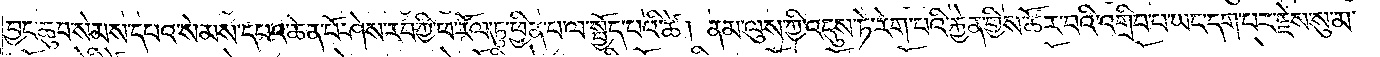བྱང་ཆུབ་སེམས་དཔའ་སེམས་དཔའ་ཆེན་པོ་ཤེས་རབ་ཀྱི་ཕ་རོལ་ཏུ་ཕྱིན་པ་ལ་སྤྱོད་པའི་ཚེ། ནམ་ལུས་ཀྱི་འདུས་ཏེ་རེག་པའི་རྐྱེན་གྱིས་ཚོར་བའི་འགྲིབ་པ་ཡང་དག་པར་རྗེས་སུ་མ་
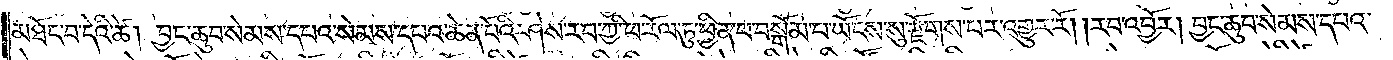མཐོང་བ་དེའི་ཚེ། བྱང་ཆུབ་སེམས་དཔའ་སེམས་དཔའ་ཆེན་པོའི་ཤེས་རབ་ཀྱི་ཕ་རོལ་ཏུ་ཕྱིན་པ་བསྒོམ་པ་ཡོངས་སུ་རྫོགས་པར་འགྱུར་རོ། །རབ་འབྱོར། བྱང་ཆུབ་སེམས་དཔའ་
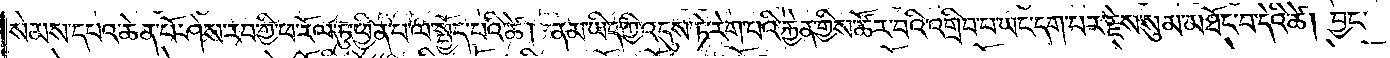སེམས་དཔའ་ཆེན་པོ་ཤེས་རབ་ཀྱི་ཕ་རོལ་ཏུ་ཕྱིན་པ་ལ་སྤྱོད་པའི་ཚེ། ནམ་ཡིད་ཀྱི་འདུས་ཏེ་རེག་པའི་རྐྱེན་གྱིས་ཚོར་བའི་འགྲིབ་པ་ཡང་དག་པར་རྗེས་སུ་མ་མཐོང་བ་དེའི་ཚེ། བྱང་
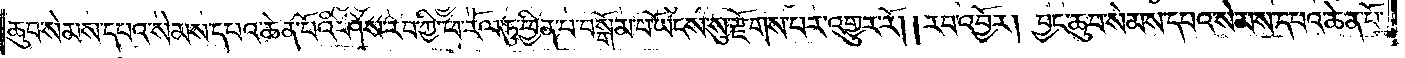ཆུབ་སེམས་དཔའ་སེམས་དཔའ་ཆེན་པོའི་ཤེས་རབ་ཀྱི་ཕ་རོལ་ཏུ་ཕྱིན་པ་བསྒོམ་པ་ཡོངས་སུ་རྫོགས་པ་འགྱུར་རོ། །རབ་འབྱོར། བྱང་ཆུབ་སེམས་དཔའ་སེམས་དཔའ་ཆེན་པོ་
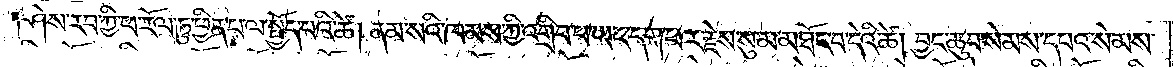ཤེས་རབ་ཀྱི་ཕ་རོལ་ཏུ་ཕྱིན་པ་ལ་སྤྱོད་པའི་ཚེ། ནམ་སའི་ཁམས་ཀྱི་འགྲིབ་པ་ཡང་དག་པར་རྗེས་སུ་མ་མཐོང་བ་དེའི་ཚེ། བྱང་ཆུབ་སེམས་དཔའ་སེམས་
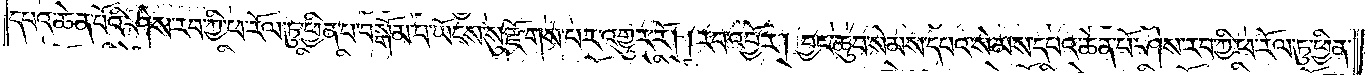དཔའ་ཆེན་པོའི་ཤེས་རབ་ཀྱི་ཕ་རོལ་ཏུ་ཕྱིན་པ་བསྒོམ་པ་ཡོངས་སུ་རྫོགས་པར་འགྱུར་རོ། །རབ་འབྱོར། བྱང་ཆུབ་སེམས་དཔའ་སེམས་དཔའ་ཆེན་པོ་ཤེས་རབ་ཀྱི་ཕ་རོལ་ཏུ་ཕྱིན་
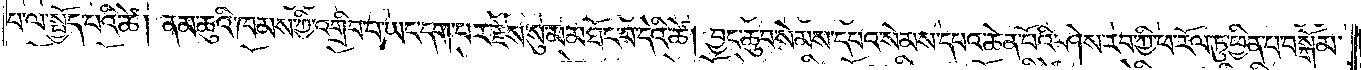པ་ལ་སྤྱོད་པའི་ཚེ། ནམ་ཆུའི་ཁམས་ཀྱི་འགྲིབ་པ་ཡང་དག་པར་རྗེས་སུ་མ་མཐོང་བ་དེའི་ཚེ། བྱང་ཆུབ་སེམས་དཔའ་སེམས་དཔའ་ཆེན་པོའི་ཤེས་རབ་ཀྱི་ཕ་རོལ་ཏུ་ཕྱིན་པ་བསྒོམ་
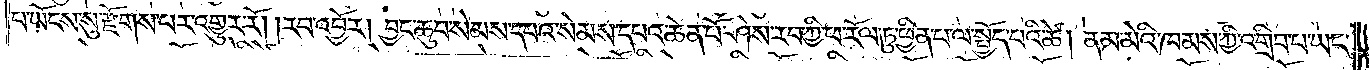པ་ཡོངས་སུ་རྫོགས་པར་འགྱུར་རོ། །རབ་འབྱོར། བྱང་ཆུབ་སེམས་དཔའ་སེམས་དཔའ་ཆེན་པོ་ཤེས་རབ་ཀྱི་ཕ་རོལ་ཏུ་ཕྱིན་པ་ལ་སྤྱོད་པའི་ཚེ། ནམ་མའི་ཁམས་ཀྱི་འགྲིབ་པ་ཡང་
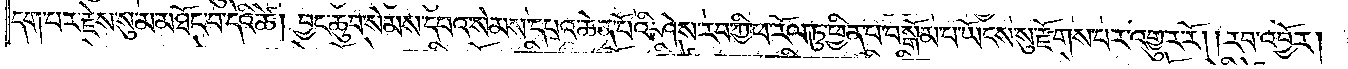དག་པར་རྗེས་སུ་མ་མཐོང་བ་དེའི་ཚེ། བྱང་ཆུབ་སེམས་དཔའ་སེམས་དཔའ་ཆེན་པོའི་ཤེས་རབ་ཀྱི་ཕ་རོལ་ཏུ་ཕྱིན་པ་བསྒོམ་པ་ཡོངས་སུ་རྫོགས་པར་འགྱུར་རོ། །རབ་འབྱོར།
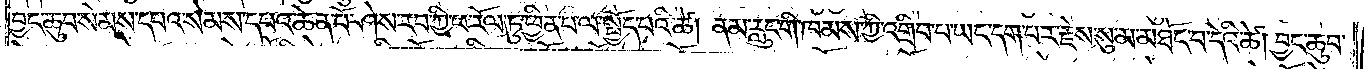བྱང་ཆུབ་སེམས་དཔའ་སེམས་དཔའ་ཆེན་པོ་ཤེས་རབ་ཀྱི་ཕ་རོལ་ཏུ་ཕྱིན་པ་ལ་སྤྱོད་པའི་ཚེ། ནམ་རླུང་གི་ཁམས་ཀྱ་འགྲིབ་པ་ཡང་དག་པར་རྗེས་སུ་མ་མཐོང་བ་དེའི་ཚེ། བྱང་ཆུབ་
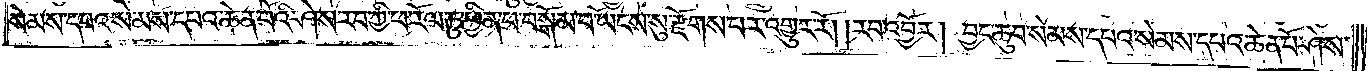སེམས་དཔའ་སེམས་དཔའ་ཆེན་པའི་ཤེས་རབ་ཀྱི་ཕ་རོལ་ཏུ་ཕྱིན་པ་བསྒོམ་པ་ཡོངས་སུ་རྫོགས་པར་འགྱུར་རོ། །རབ་འབྱོར། བྱང་ཆུབ་སེམས་དཔའ་སེམས་དཔའ་ཆེན་པོ་ཤེས་
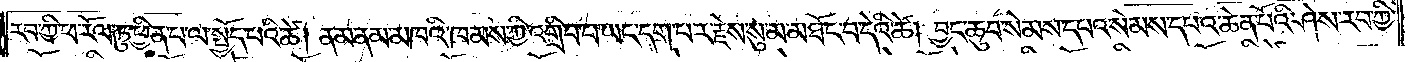རབ་ཀྱི་ཕ་རོལ་ཏུ་ཕྱིན་པ་ལ་སྤྱད་པའི་ཚེ། ནམ་ནམ་མཁའི་ཁམས་ཀྱི་འགྲིབ་པ་ཡང་དག་པར་རྗེས་སུ་མ་མཐོང་བ་དེའི་ཚེ། བྱང་ཆུབ་སེམས་དཔའ་སེམས་དཔའ་ཆེན་པོའི་ཤེས་རབ་ཀྱི་
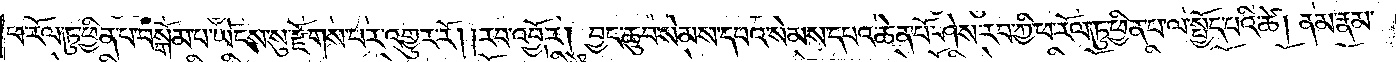ཕ་རོལ་ཏུ་ཕྱིན་པ་བསྒོམ་པ་ཡོངས་སུ་རྫོགས་པར་འགྱུར་རོ། །རབ་འབྱོར། བྱང་ཆུབ་སེམས་དཔའ་སེམས་དཔའ་ཆེན་པོ་ཤེས་རབ་ཀྱི་ཕ་རོལ་ཏུ་ཕྱིན་པ་ལ་སྤྱོད་པའི་ཚེ། ནམ་རྣམ་
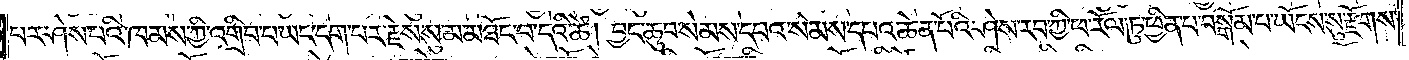པར་ཤེས་པའི་ཁམས་ཀྱི་འགྲིབ་པ་ཡང་དག་པར་རྗེས་སུ་མ་མཐོང་བ་དེའི་ཚེ། བྱང་ཆུབ་སེམས་དཔའ་སེམས་དཔའ་ཆེན་པོའི་ཤེས་རབ་ཀྱི་ཕ་རོལ་ཏུ་ཕྱིན་པ་བསྒོམ་པ་ཡོངས་སུ་རྫོགས་
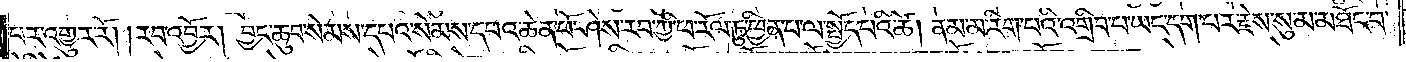པར་འགྱུར་རོ། །རབ་འབྱོར། བྱང་ཆུབ་སེམས་དཔའ་སེམས་དཔའ་ཆེན་པོ་ཤེས་རབ་ཀྱི་ཕ་རོལ་ཏུ་ཕྱིན་པ་ལ་སྤྱོད་པའི་ཚེ། ནམ་མ་རིག་པའི་འགྲིབ་པ་ཡང་དག་པར་རྗེས་སུ་མ་མཐོང་བ་
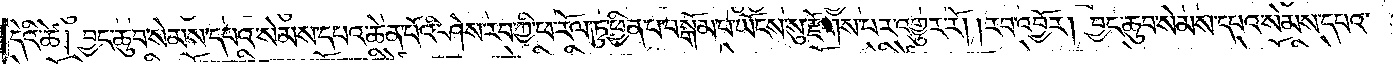དེའི་ཚེ། བྱང་ཆུབ་སེམས་དཔའ་སེམས་དཔའ་ཆེན་པོའི་ཤེས་རབ་ཀྱི་ཕ་རོལ་ཏུ་ཕྱིན་པ་བསྒོམ་པ་ཡོངས་སུ་རྫོགས་པར་འགྱུར་རོ། །རབ་འབྱོར། བྱང་ཆུབ་སེམས་དཔའ་སེམས་དཔའ་
